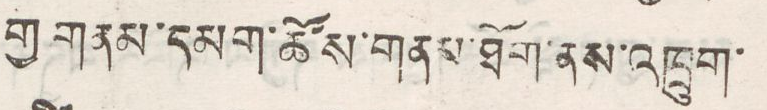གྱི གནམ་དམག་ཚོས་གནམ་ཐོག་ནས་འཁྲུག་
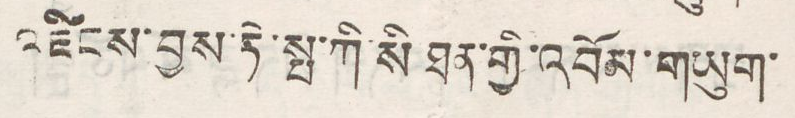འཛིངས་བྱས་ཏེ་སྤ་ཀི་སི་ཐན་གྱི་འབོམ་གཡུག་
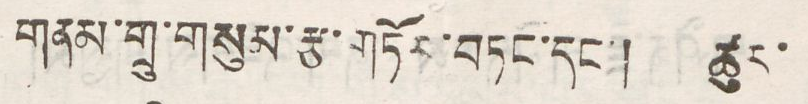གནམ་གྲུ་གསུམ་རྩ་གཏོར་བཏང་དང་། ཚུར་
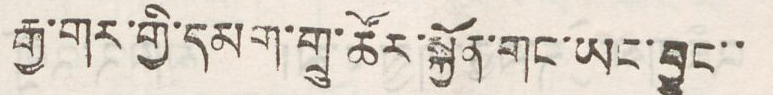རྒྱ་གར་གྱི་དམག་གྲུ་ཚོར་སྐྱོན་གང་ཡང་བྱུང་་
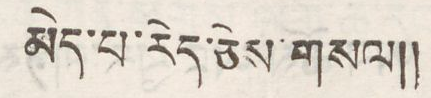མེད་པ་རེད་ཅེས་གསལ།།
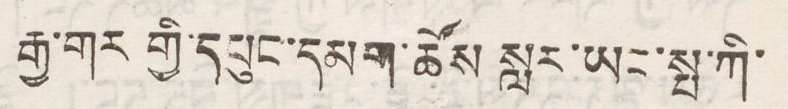རྒྱ་གར གྱི་དཔུང་དམག་ཚོས སླར་ཡང་སྤ་ཀི་
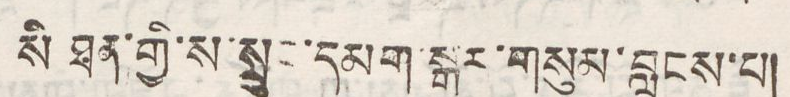སི ཐན་གྱི་ས་སྲུང་དམག་སྒར་གསུམ་བླངས་པ།
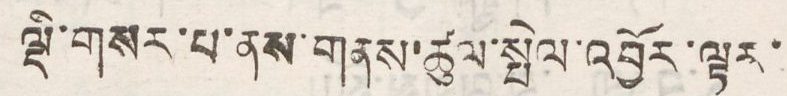ལྡི་གསར་པ་ནས་གནས་ཚུལ་སྤེལ་འབྱོར་ལྟར་
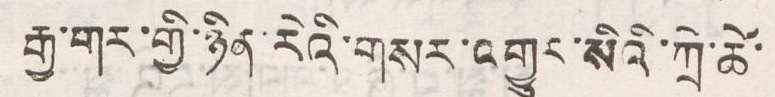རྒྱ་གར་གྱི་ཉིན་རེའི་གསར་འགྱུར་སིའི་ཀྲེ་ཚེ་
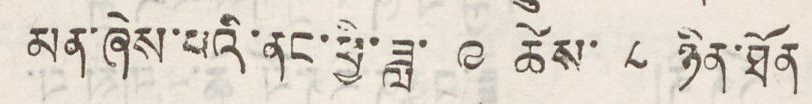མན་ཞེས་པའི་ནང་ཕྱི་ཟླ་ ༩ ཚེས་ ༨ ཉིན་ཐོན
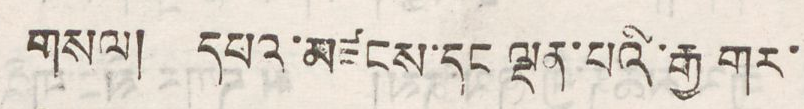གསལ། དཔའ་མཛངས་དང ལྡན་པའི་རྒྱ་གར་
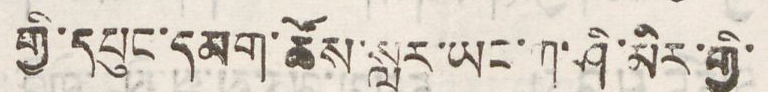གྱི་དཔུང་དམག་ཚོས་སླར་ཡང་ཀ་ཤི་མིར་གྱི་
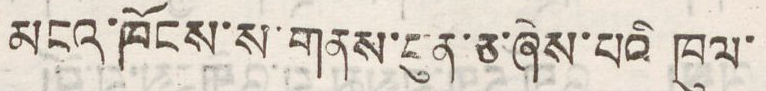མངའ་ཁོངས་ས་གནས་པུན་ཅ་ཆེས་པའི ཁུལ་
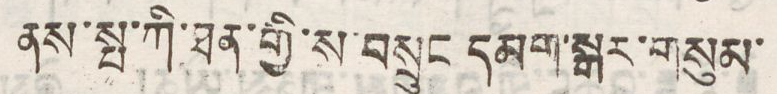ནས་སྤ་ཀི་ཐན་གྱི་ས་བསྲུང དམག་སྒར་གསུམ་
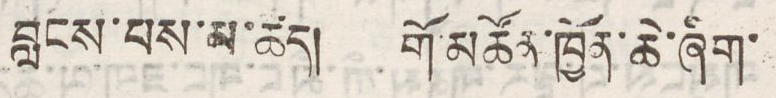བླངས་པས་མ་ཚད། གོ་མཚོན་ཁྱོན་ཆེ་ཞིག་
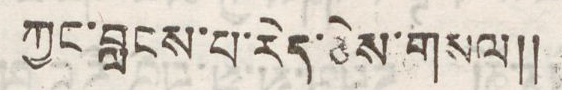ཀྱང་བླངས་པ་རེད་ཅེས་གསལ།།
